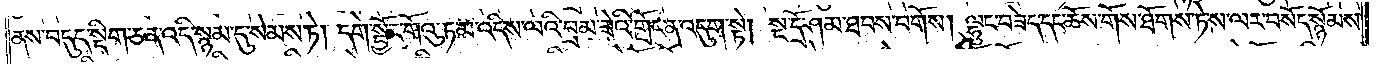ནས་བདུད་སྡིག་ཅན་འདི་སྙམ་དུ་སེམས་ཏེ། དགེ་སྦྱོང་གོའུ་ཏ་མ་འདིས་ལའི་བྲམ་ཟེའི་གྲོང་ན་འདུག་སྟེ། སྔ་དྲོ་ཤམ་ཐབས་བགོས། ལྷུང་བཟེད་དང་ཆོས་གོས་ཐོགས་ཏེ་ས་ལར་བསོད་སྙོམས་
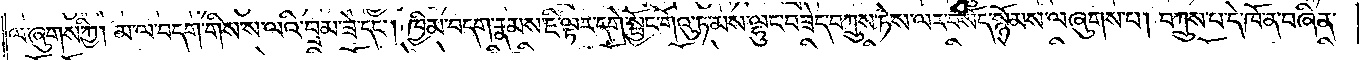ལ་ཞུགས་ཀྱི། མ་ལ་བདག་གིས་ས་ལའི་བྲམ་ཟེ་དང༌། ཁྱིམ་བདག་རྣམས་ཇི་ལྟར་དགེ་སྦྱོང་གོའུ་ཏ་མས་ལྷུང་བཟེད་བཀྲུས་ཏེ་ས་ལར་བསོད་སྙོམས་ལ་ཞུགས་པ། བཀྲུས་པ་དེ་ཁོ་ན་བཞིན་
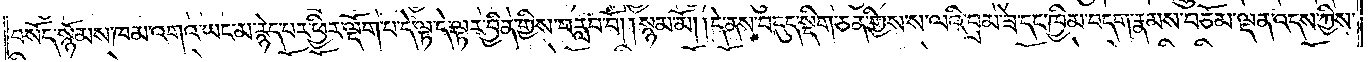བསོད་སྙོམས་ཁམ་འགའ་ཡང་མ་རྙེད་པར་ཕྱིར་ལྡོག་པ་དེ་ལྟ་དེ་ལྟར་བྱིན་གྱིས་པ་བརླབ་བོ། །སྙམ་མོ། །དེ་ནས་བདུད་སྡིག་ཅན་གྱིས་ས་ལའི་བྲམ་ཟེ་དང་ཁྱིམ་བདག་རྣམས་བཅོམ་ལྡན་འདས་ཀྱིས་
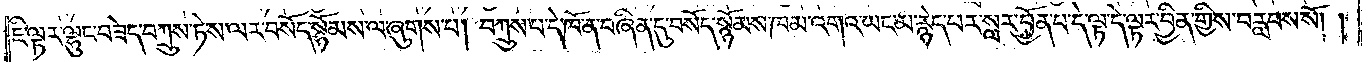ཇི་ལྟར་ལྷུང་བཟེད་བཀྲུས་ཏེ་ས་ལར་བསོད་སྙོམས་ལ་ཞུགས་པ། བཀྲུས་པ་དེ་ཁོ་ན་བཞིན་དུ་བསོད་སྙོམས་ཁམ་འགའ་ཡང་མ་རྙེད་པར་སླར་བྱོན་པ་དེ་ལྟ་དེ་ལྟར་བྱིན་གྱིས་བརླབས་སོ། །
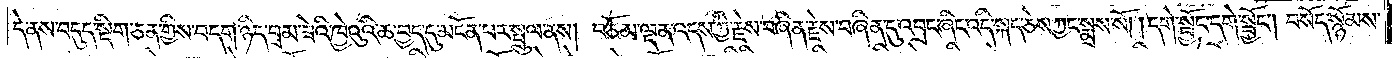དེ་ནས་བདུད་སྡིག་ཅན་གྱིས་བདག་ཉིད་བྲམ་ཟེའི་ཁྱེའུའི་ཆ་བྱད་དུ་མངོན་པར་སྤྲུལ་ནས། བཅོམ་ལྡན་འདས་ཀྱི་རྗེས་བཞིན་རྗེས་བཞིན་དུ་འབྲང་ཞིང་འདི་སྐད་ཅེས་ཀྱང་སྨྲས་སོ། །དགེ་སྦྱོང་དགེ་སྦྱོང༌། བསོད་སྙོམས་
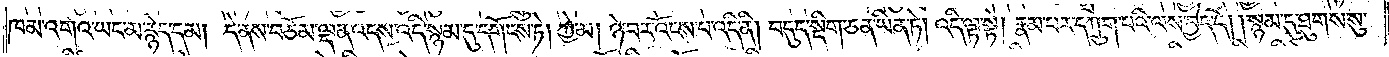ཁམ་འགའ་ཡང་མ་རྙེད་དམ། དེ་ནས་བཅོམ་ལྡན་འདས་འདི་སྙམ་དུ་དགོངས་ཏེ། ཀྱེ་མ། ཉེ་བར་འོངས་པ་འདི་ནི། བདུད་སྡིག་ཅན་ཡིན་ཏེ། འདི་ལྟ་སྟེ། རྣམ་པར་དཀྲུག་པའི་ལས་བྱེད་དོ། །སྙམ་དུ་ཐུགས་སུ་
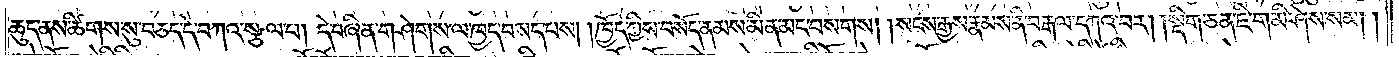ཆུད་ནས་ཚིགས་སུ་བཅད་དེ་བཀའ་སྩལ་པ། དེ་བཞིན་གཤེགས་ལ་ཁྱད་བསད་པས། །ཁྱོད་ཀྱིས་བསོད་ནམས་མིན་མང་བསགས། །སངས་རྒྱས་རྣམས་ནི་བརྒལ་དཀའ་བར། །སྡིག་ཅན་ཇི་ག་མི་ཤེས་སམ། །
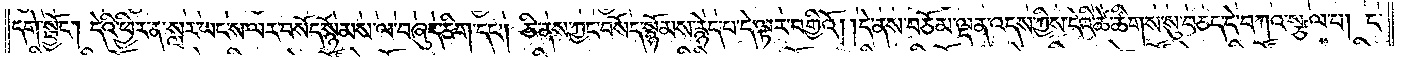དགེ་སྦྱོང༌། དེའི་ཕྱིར་ན་སླར་ཡངས་ལར་བསོད་སྙོམས་ལ་བཞུད་ཅིག་དང༌། ཅི་ནས་ཀྱང་བསོད་སྙོམས་རྙེད་པ་དེ་ལྟར་བགྱིའོ། །དེ་ནས་བཅོམ་ལྡན་འདས་ཀྱིས་དེའི་ཚེ་ཚིགས་སུ་བཅད་དེ་བཀའ་སྩལ་པ། ད་
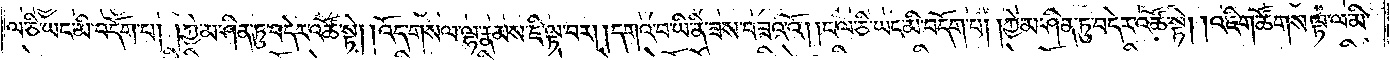ལ་ཅི་ཡང་མི་བདོག་པ། །ཀྱེ་མ་ཤིན་ཏུ་བདེར་འཚོ་སྟེ། །འོད་གསལ་ལྷ་རྣམས་ཇི་ལྟ་བར། །དགའ་བ་ཡི་ནི་ཟས་བཟའ་འོ། །ང་ལ་ཅི་ཡང་མི་བདོག་པ། །ཀྱེ་མ་ཤིན་ཏུ་བདེར་འཚོ་སྟེ། །འཇིག་ཚོགས་ལྟ་ལ་མི་
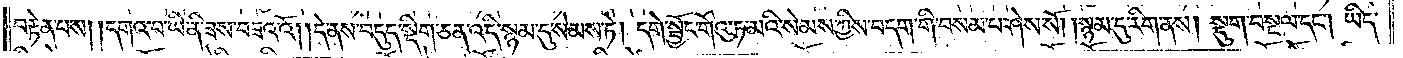བརྟེན་པས། །དགའ་བ་ཡི་ནི་ཟས་བཟའ་འོ། །དེ་ནས་བདུད་སྡིག་ཅན་འདི་སྙམ་དུ་སེམས་ཏེ། དགེ་སྦྱོང་གོའུ་ཏ་མའི་སེམས་ཀྱི་བདག་གི་བསམ་པ་ཤེས་སོ། །སྙམ་དུ་རིག་ནས། སྡུག་བསྔལ་དང༌། ཡིད་
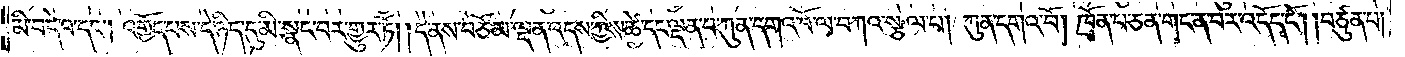མི་བདེ་བ་དང༌། འགྱོད་པས་དེ་ཉིད་དུ་མི་སྣང་བར་གྱུར་ཏོ། །དེ་ནས་བཅོམ་ལྡན་འདས་ཀྱིས་ཚེ་དང་ལྡན་ས་ཀུན་དགའ་བོ་ལ་བཀའ་སྩལ་པ། ཀུན་དགའ་བོ། ཁྲོན་པ་ཅན་གང་ན་བར་འདོད་དོ། །བཙུན་པ།
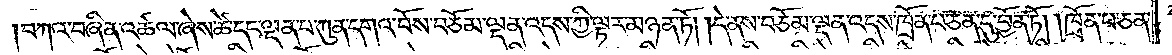བཀའ་བཞིན་འཚལ་ཞེས་ཚེ་དང་ལྡན་པ་ཀུན་དགའ་བོས་བཅོམ་ལྡན་འདས་ཀྱི་ལྟར་མཉན་ཏོ། །དེ་ནས་བཅོམ་ལྡན་འདས་ཁྲོན་པ་ཅན་དུ་བྱོན་ཏོ། །ཁྲོན་པ་ཅན་
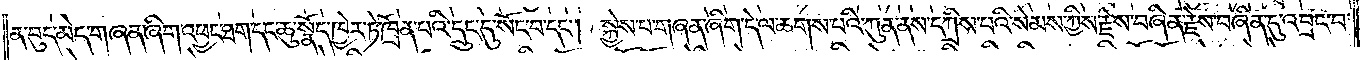ན་བུད་མེད་གཞན་ཞིག་འཕྱང་ཐག་དང་ཆུ་སྣོད་ཁྱེར་ཏེ་ཁྲོན་པའི་དྲུང་དུ་སོང་བ་དང༌། སྐྱེས་པ་གཞན་ཞིག་དེ་ལ་ཆགས་པའི་ཀུན་ནས་དཀྲིས་པའི་སེམས་ཀྱིས་རྗེས་བཞིན་རྗེས་བཞིན་དུ་འབྲང་བ་
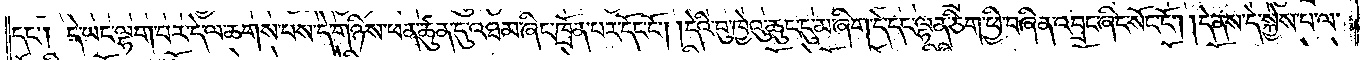དང༌། དེ་ཡང་ལྷག་པར་དེ་ལ་ཆགས་པས་དེ་གཉིས་ཕན་ཚུན་དུ་འཐམ་ཞིང་ཁྲོན་པར་དོང་ངོ༌། །དེའི་བུ་ཁྱེའུ་ཆུང་ངུ་མ་ཞིག་དེ་དང་ལྷན་ཅིག་ཕྱི་བཞིན་འབྲང་ཞིང་སོང་ངོ༌། །དེ་ནས་དེ་སྐྱེས་པ་ལ་
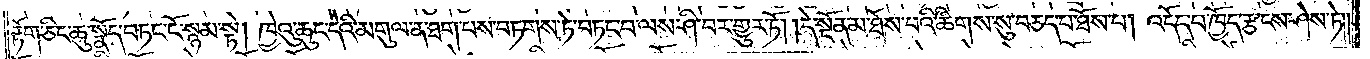རྟོག་ཅིང་ཆུ་སྣོད་བཏང་ངོ་སྙམ་སྟེ། ཁྱེའུ་ཆུང་དེའི་མགུལ་ན་ཐག་པས་བཏགས་ཏེ་བཏང་བ་ལས་ཤི་བར་གྱུར་ཏོ། །དེ་སྔོན་མ་ཐོས་པའི་ཚིགས་སུ་བཅད་པ་ཐོས་པ། འདོད་པ་ཁྱོད་རྩ་ངས་ཤེས་ཏེ༎
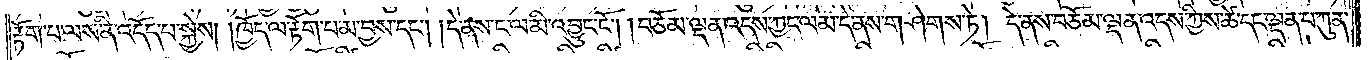རྟོག་པ་ལས་ནི་འདོད་པ་སྐྱེས། །ཁྱོད་ལ་རྟོག་པ་མ་བྱས་དང༌། །དེ་ནས་ང་ལ་མི་འབྱུང་ངོ༌། །བཅོམ་ལྡན་འདས་ཀྱང་ལམ་དེ་ནས་གཤེགས་ཏེ། དེ་ནས་བཅོམ་ལྡན་འདས་ཀྱིས་ཚེ་དང་ལྡན་པ་ཀུན་
